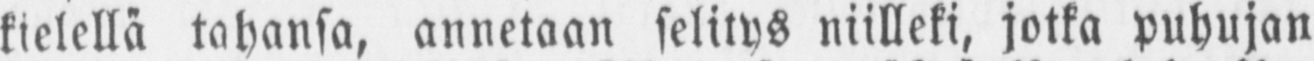kielellä tahansa, annetaan selitys niilleki, jotka puhujan
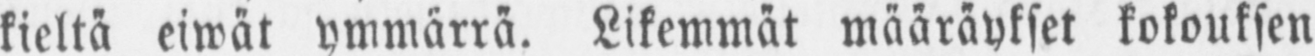kieltä eiwät ymmärrä. Likemmät määräykset kokouksen
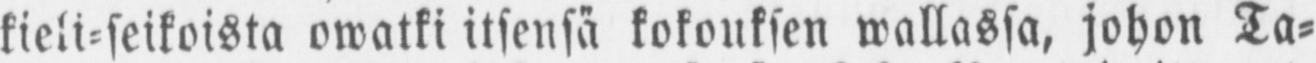kieli-seikoista owatki itsensä kokouksen wallassa, johon Ta-
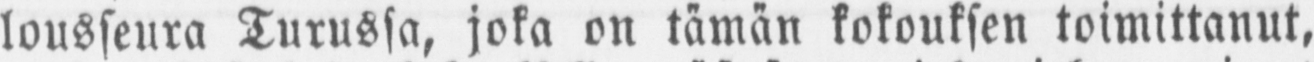lousseura Turussa, joka on tämän kokouksen toimittanut,
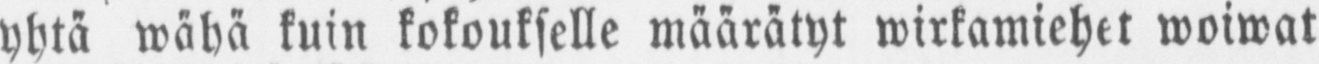yhtä wähä kuin kokoukselle määrätyt wirkamiehet woiwat
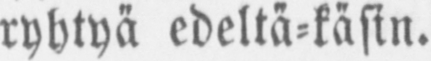ryhtyä edeltä-käsin.
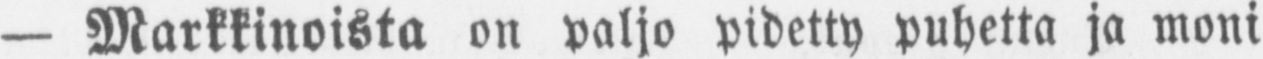— Markkinoista on paljo pidetty puhetta ja moni
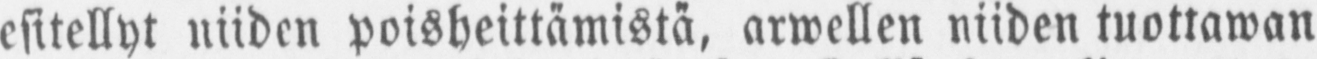esitellyt niiden poisheittämistä, arwellen niiden tuottawan
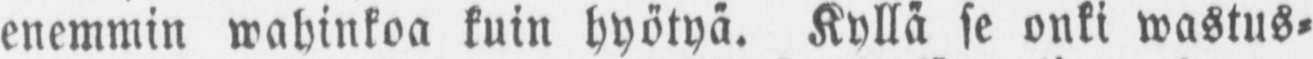enemmin wahinkoa kuin hyötyä. Kyllä se onki wastus-
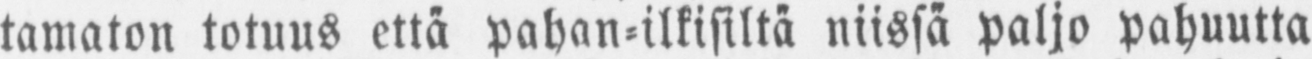tamaton totuus että pahan-ilkisiltä niissä paljo pahuutta
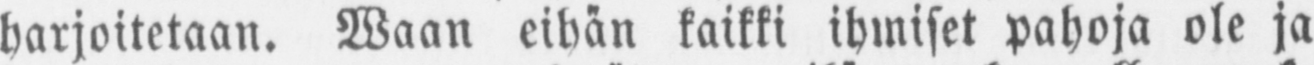harjoitetaan. Waan eihän kaikki ihmiset pahoja ole ja
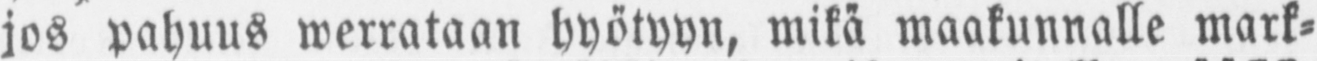jos pahuus werrataan hyötyyn, mikä maakunnalle mark-
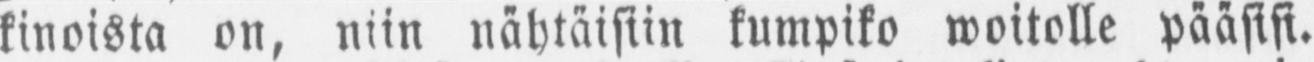kinoista on, niin nähtäisiin kumpiko woitolle pääsisi.
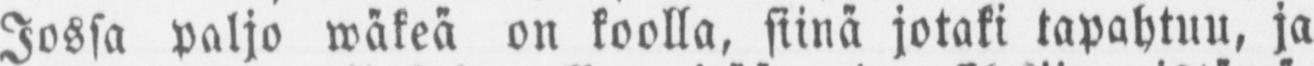Jossa paljo wäkeä on koolla, siinä jotaki tapahtuu, ja
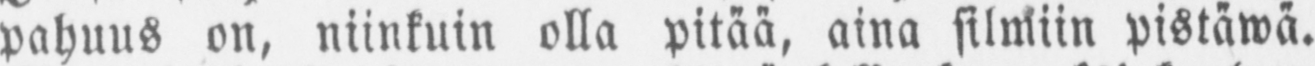pahuus on, niinkuin olla pitää, aina silmiin pistäwä.
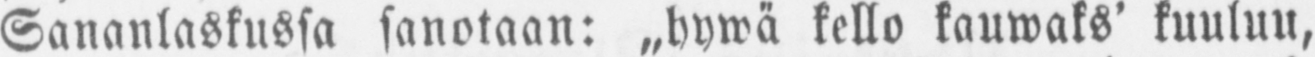Sananlaskussa sanotaan: „hywä kello kauwaks' kuuluu,
